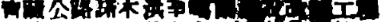靑藏公路諾木洪至噶爾穆段改綫工程
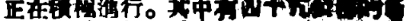正在積極進行。其中有四十九公里的新
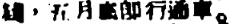綫，五月底卽行通車。
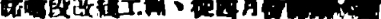諾噶段改綫工程、從四月份開始，通
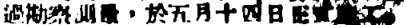過勘察測量，於五月十四日正式動工。
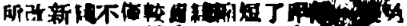所改新綫不僅較舊綫縮短了里程，避免
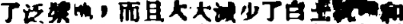了泛漿地，而且大大減少了白土地帶和
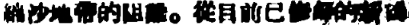綿沙地帶的阻難。從目前已修好的路綫
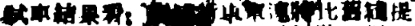試車結果看：新綫行車量遠將比舊綫提
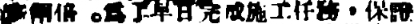高兩倍。爲了早日完成施工任務，保證
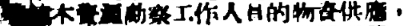柴達木資源勘察工作人員的物資供應，
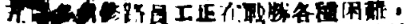五百多名修路員工正在戰勝各種困難，
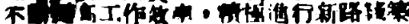不斷提高工作效率，積極進行新路綫築
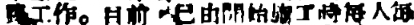路工作。目前，已由開始施工時每人每
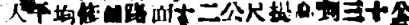天平均修鋪路面十二公尺提高到三十公
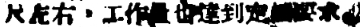尺左右，工作量也達到定額要求。
